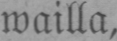mailla,
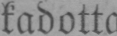kadotta
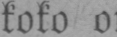koko 0!
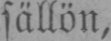sällön,
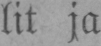lit ja
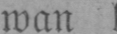ivan l
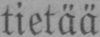tietää
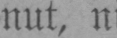nut, m
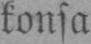kousa
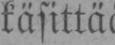käsittäc
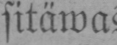sitäma!
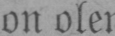ou ole»
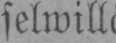selmillc
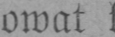omat l
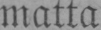matta
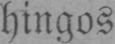hinqos
